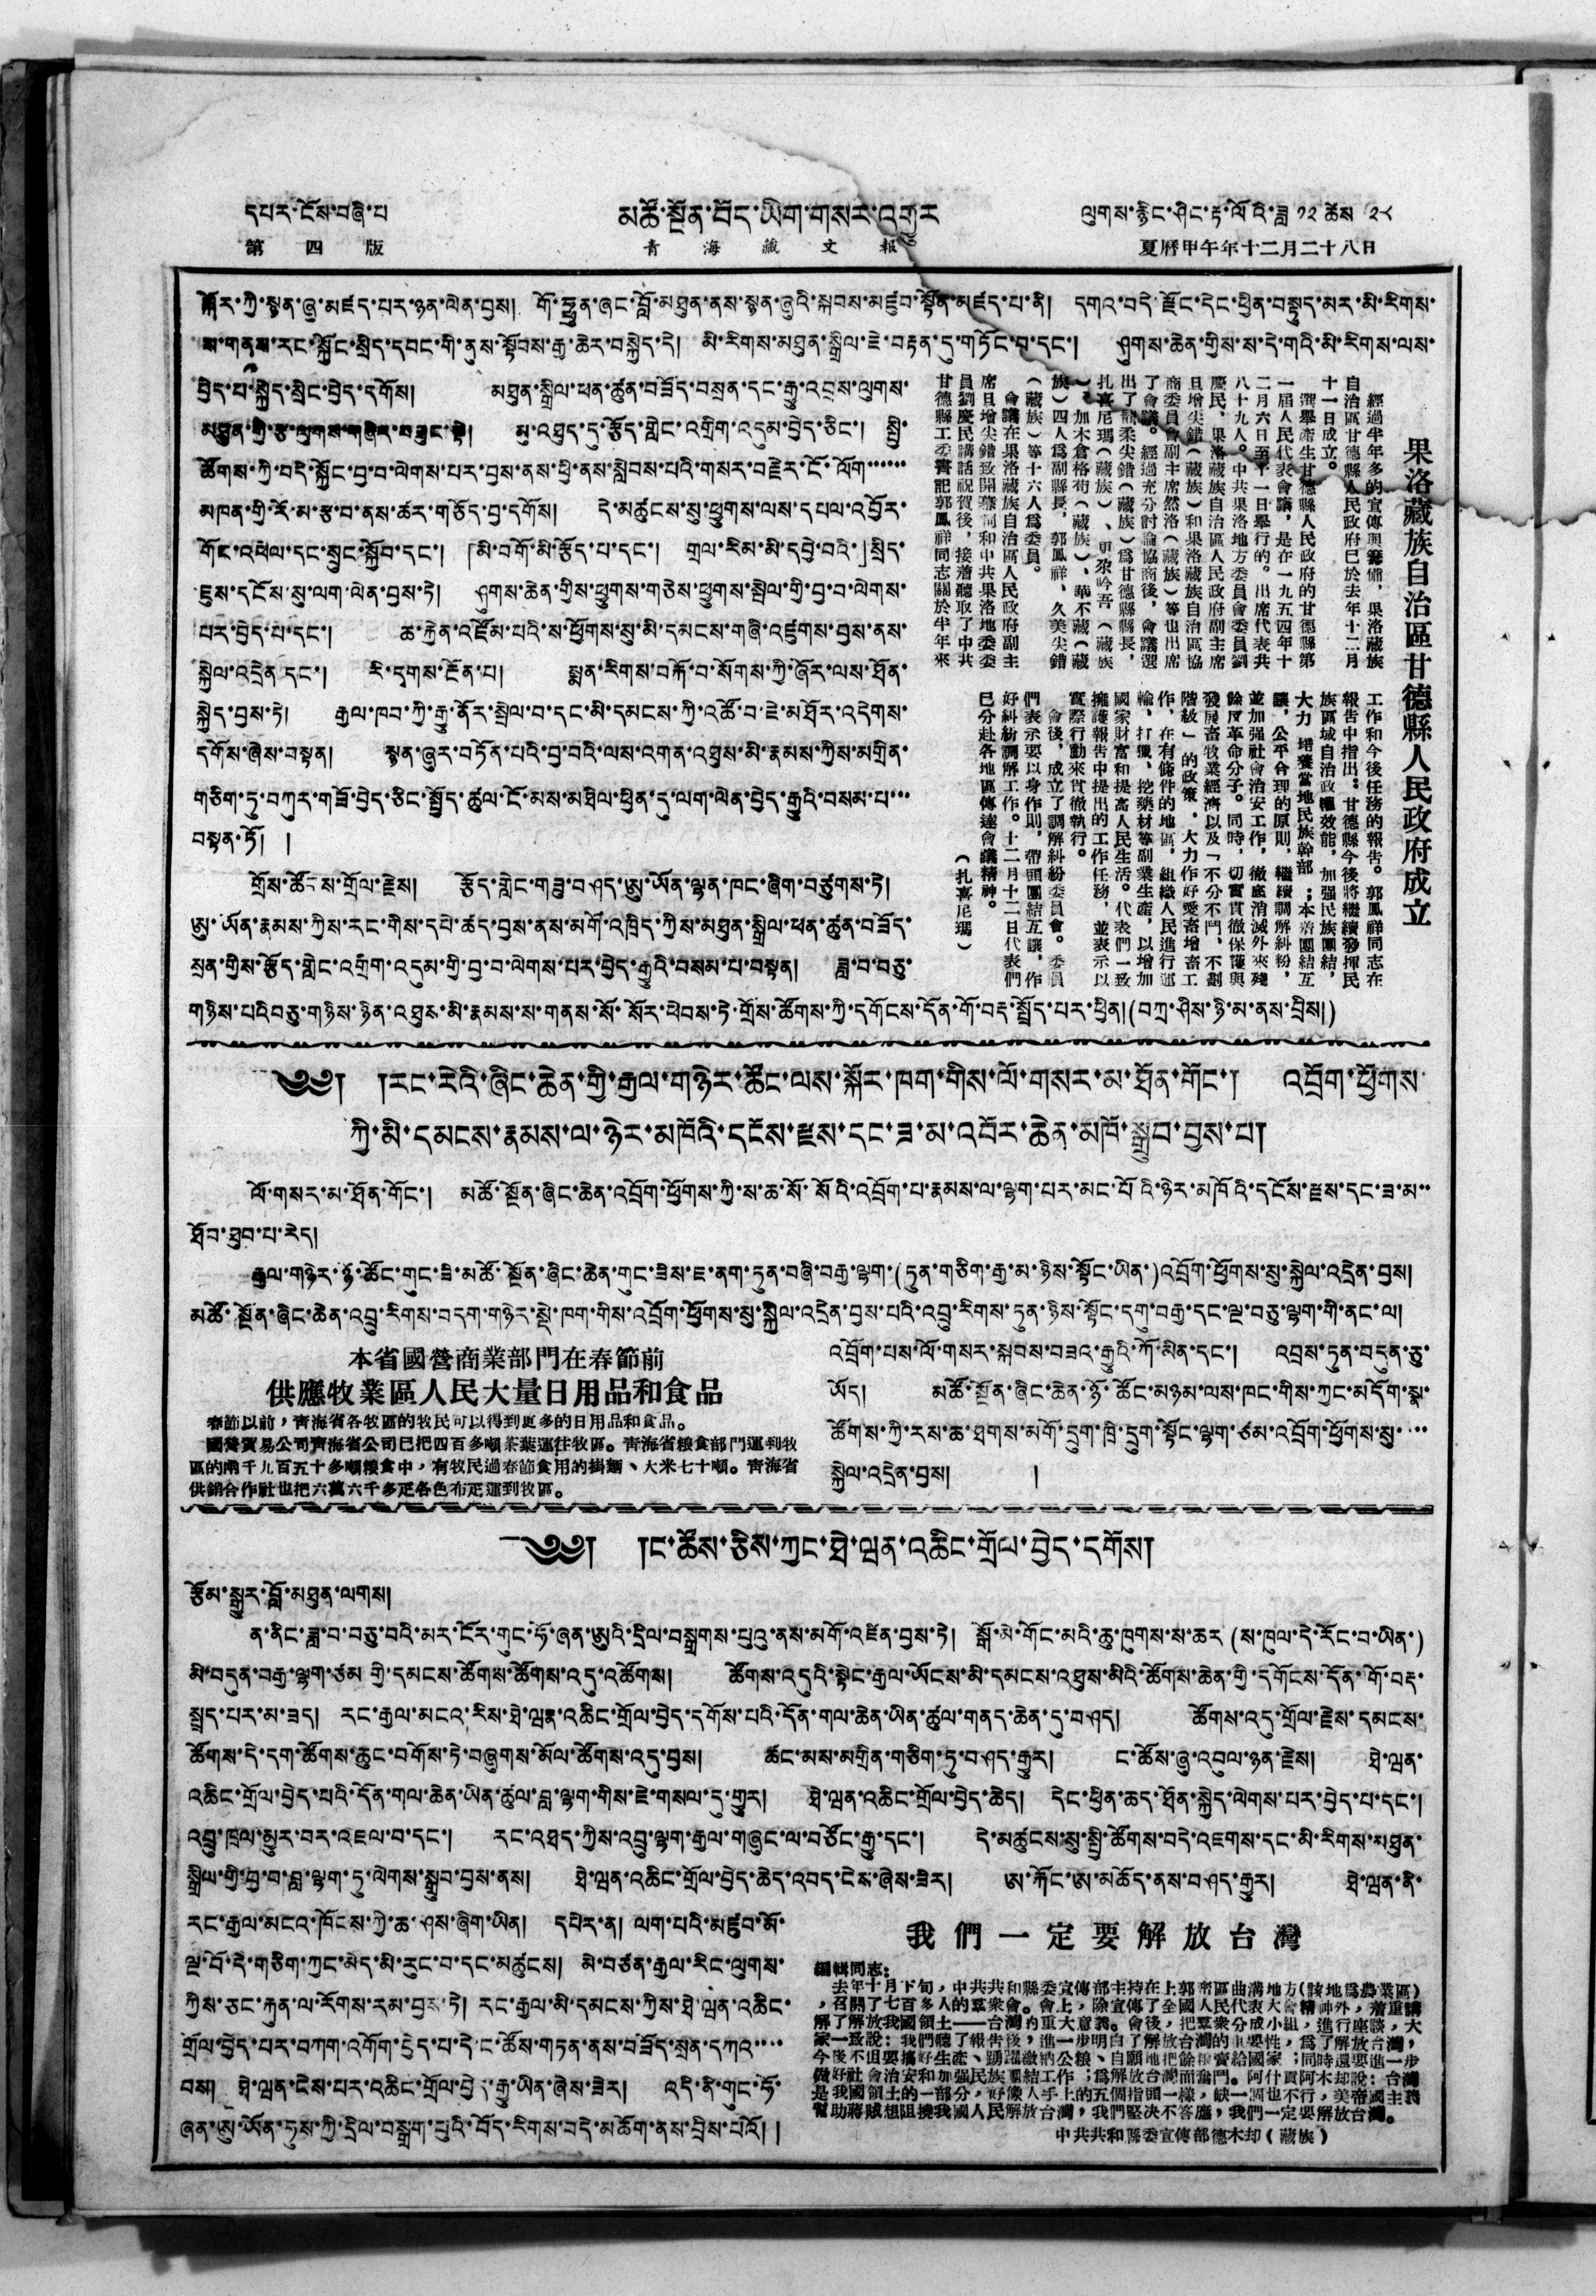དཔར་ངོས་བཞི་པ   མཚོ་སྔོན་བོད་ཡིག་གསར་འགྱུར  ལུགས་རྙིང་ཤིང་རྟ་ལོའི་ཟླ ༡༢ ཚེས ༢༨
第 四 版 青 海 藏 文 報 夏曆甲午年十二月二十八日
སྐོར་ཀྱི་སྙན་ཞུ་མཛད་པར་ཉན་ལེན་བྱས། གོ་ཧྥུན་ཞང་བློ་མཐུན་ནས་སྙན་ཞུའི་སྐབས་མཛུབ་སྟོན་མཛད་པ་ནི། དགའ་བདེ་རྫོང་དེང་ཕྱིན་བསྟུད་མར་མི་རིགས་
ས་གནས་རང་སྐྱོང་སྲིད་དབང་གི་ནུས་སྟོབས་རྒྱ་ཆེར་བསྐྱེད་དེ། མི་རིགས་མཐུན་སྒྲིལ་ཇེ་བརྟན་དུ་གཏོང་བ་དང་། ཤུགས་ཆེན་གྱིས་ས་དེ་གའི་མི་རིགས་ལས་
བྱེད་པ་སྐྱེད་སྲིང་བྱེད་དགོས། མཐུན་སྒྲིལ་ཕན་ཚུན་བཟོད་བསྲན་དང་རྒྱུ་འབྲས་ལུགས་
མཐུན་གྱི་རྩ་ལུགས་གཞིར་བཟུང་སྟེ། མུ་འཐུད་དུ་རྩོད་གླེང་འགྲིག་འདུམ་བྱེད་ཅིང་། སྤྱི་
ཚོགས་ཀྱི་བདེ་སྐྱོང་བྱ་བ་ལེགས་པར་བྱས་ནས་ཕྱི་ནས་སླེབས་པའི་གསར་བརྗེར་ངོ་ལོག་་་་་་་
མཁན་གྱི་རོ་མ་རྩ་བ་ནས་ཚར་གཅོད་བྱ་དགོས། དེ་མཚུངས་སུ་ཕྱུགས་ལས་དཔལ་འབྱོར་
གོང་འཕེལ་དང་སྲུང་སྐྱོབ་དང་། 「མི་བགོ་མི་རྩོད་པ་དང་། གྲལ་རིམ་མི་དབྱེ་བའི་」སྲིད་
ཇུས་དངོས་སུ་ལག་ལེན་བྱས་ཏེ། ཤུགས་ཆེན་གྱིས་ཕྱུགས་གཅེས་ཕྱུགས་སྤེལ་གྱི་བྱ་བ་ལེགས་
པར་བྱེད་པ་དང་། ཆ་རྐྱེན་འཛོམ་པའི་ས་ཕྱོགས་སུ་མི་དམངས་གཞི་འཛུགས་བྱས་ནས་
སྐྱེལ་འདྲེན དང་། རི་དྭགས་རྔོན་པ། སྨན་རིགས་བརྐོ་བ་སོགས་ཀྱི་ཞོར་ལས་ཐོན་
སྐྱེད་བྱས་ཏེ། རྒྱལ་ཁབ་ཀྱི་རྒྱུ་ནོར་སྤེལ་བ་དང་མི་དམངས་ཀྱི་འཚོ་བ་ཇེ་མཐོར་འདེགས་
དགོས་ཞེས་བསྟན། སྙན་ཞུར་བཏོན་པའི་བྱ་བའི་ལས་འགན་འཐུས་མི་རྣམས་ཀྱིས་མགྲིན་
གཅིག་ཏུ་བཀུར་གཟོ་བྱེད་ཅིང་སྤྱོད་ཚུལ་ངོ་མས་མཐིལ་ཕྱིན་དུ་ལག་ལེན་བྱེད་རྒྱུའི་བསམ་པ་་་
བསྟན་ཏོ། །
གྲོས་ཚོངས་གྲོལ་རྗེས། རྩོད་གླེང་གཟུ་བཤད་ཨུ་ཡོན་ལྷན་ཁང་ཞིག་བཙུགས་ཏེ།
ཨུ་ཡོན་རྣམས་ཀྱིས་རང་གིས་དཔེ་ཚད་བྱས་ནས་མགོ་འཁྲིད་ཀྱིས་མཐུན་སྒྲིལ་ཕན་ཚུན་བཟོད་
སྲན་གྱིས་རྩོད་གླེང་འགྲིག་འདུམ་གྱི་བྱ་བ་ལེགས་པར་བྱེད་རྒྱུའི་བསམ་པ་བསྟན། ཟླ་བ་བཅུ་
གཉིས་པའི བཅུ་གཉིས་ཉིན་འཐུས་མི་རྣམས་ས་གནས་སོ་སོར་ཕེབས་ཏེ་གྲོས་ཚོགས་ཀྱི་དགོངས་དོན་གོ་བརྡ་སྤྲོད་པར་ཕྱིན།
(བཀྲ་ཤིས་ཉི་མ་ནས་བྲིས།)
果洛藏族自治區甘德縣人民政府成立
經過半年多的宣傳與籌備，果洛藏族
自治區甘德縣人民政府已於去年十二月
十一日成立。
選舉產生甘德縣人民政府的甘德縣第
一屆人民代表會議，是在一九五四年十
二月六日至十一日舉行的。出席代表共
八十九人。中共果洛地方委員會委員劉
慶民，果洛藏族自治區人民政府副主席
旦增尖錯（藏族）和果洛藏族自治區協
商委員會副主席然洛（藏族）等也出席
了會議。經過充分討論協商後，會議選
出了龍柔尖錯（藏族）爲甘德縣縣長，
扎喜尼瑪（藏族）、更尕吟吾（藏族
）、加木倉格苟（藏族）、華不藏（藏
族）四人爲副縣長，郭鳳祥、久美尖錯
（藏族）等十六人爲委員。
會議在果洛藏族自治區人民政府副主
席旦增尖錯致開幕詞和中共果洛地委委
員劉慶民講話祝賀後，接着聽取了中共
甘德縣工委書記郭鳳祥同志關於半年來
工作和今後任務的報告。郭鳳祥同志在
報告中指出：甘德縣今後將繼續發揮民
族區域自治政權效能，加強民族團結，
大力 培養當地民族幹部 ；本着團結互
讓，公平合理的原則，繼續調解糾紛，
並加強社會治安工作，徹底消滅外來殘
餘反革命分子。同時，切實貫徹保護與
發展畜牧業經濟以及「不分不鬥、不劃
階級」 的政策 ，大力作好愛畜增畜工
作，在有條件的地區，組織人民進行運
輸、打獵、挖藥材等副業生產，以增加
國家財富和提高人民生活。代表們一致
擁護報告中提出的工作任務，並表示以
實際行動來貫徹執行。
會後，成立了調解糾紛委員會。委員
們表示要以身作則，帶頭團結互讓，作
好糾紛調解工作。十二月十二日代表們
已分赴各地區傳達會議精神。
（扎喜尼瑪）
༄༅། །རང་རེའི་ཞིང་ཆེན་གྱི་རྒྱལ་གཉེར་ཚོང་ལས་སྐོར་ཁག་གིས་ལོ་གསར་མ་ཐོན་གོང་། འབྲོག་ཕྱོགས་
ཀྱི་མི་དམངས་རྣམས་ལ་ཉེར་མཁོའི་དངོས་རྫས་དང་ཟ་མ་འབོར་ཆེན་མཁོ་སྒྲུབ་བྱས་པ།
ལོ་གསར་མ་ཐོན་གོང་། མཚོ་སྔོན་ཞིང་ཆེན་འབྲོག་ཕྱོགས་ཀྱི་ས་ཆ་སོ་སོའི་འབྲོག་པ་རྣམས་ལ་ལྷག་པར་མང་པོའི་ཉེར་མཁོའི་དངོས་རྫས་དང་ཟ་མ་་
ཐོབ་ཐུབ་པ་རེད།
རྒྱལ་གཉེར་ཉོ་ཚོང་གུང་ཟི་མཚོ་སྔོན་ཞིང་ཆེན་གུང་ཟིས་ཇ་ནག་ཏུན་བཞི་བརྒྱ་ལྷག་(ཏུན་གཅིག་རྒྱ་མ་ཉིས་སྟོང་ཡིན་)འབྲོག་ཕྱོགས་སུ་སྐྱེལ་འདྲེན་བྱས།
མཚོ་སྔོན་ཞིང་ཆེན་འབྲུ་རིགས་བདག་གཉེར་སྡེ་ཁག་གིས་འབྲོག་ཕྱོགས་སུ་སྐྱིལ་འདྲེན་བྱས་པའི་འབྲུ་རིགས་ཏུན་ཉིས་སྟོང་དགུ་བརྒྱ་དང་ལྔ་བཅུ་ལྷག་གི་ནང་ལ།
འབྲོག་པས་ལོ་གསར་སྐབས་བཟའ་རྒྱུའི་ཀོ་མིན་དང་། འབྲས་ཏུན་བདུན་ཅུ་
ཡོད། མཚོ་སྔོན་ཞིང་ཆེན་ཉོ་ཚོང་མཉམ་ལས་ཁང་གིས་ཀྱང་མདོག་སྣ་
ཚོགས་ཀྱི་རས་ཆ་ཐུགས་མགོ་དྲུག་ཁྲི་དྲུག་སྟོང་ལྷག་ཙམ་འབྲོག་ཕྱོགས་སུ་་་་
སྐྱེལ་འདྲེན་བྱས། །
本省國營商業部門在春節前
供應牧業區人民大量日用品和食品
春節以前，靑海省各牧區的牧民可以得到更多的日用品和食品。
國營貿易公司靑海省公司已把四百多噸茶葉運往牧區。靑海省粮食部門運到牧
區的兩千九百五十多噸粮食中，有牧民過春節食用的掛麵、大米七十噸。靑海省
供銷合作社也把六萬六千多疋各色布疋運到牧區。
༄༅། །ང་ཚོས་ཅིས་ཀྱང་ཐེ་ཝན་འཆིང་གྲོལ་བྱེད་དགོས།
རྩོམ་སྒྱུར་བློ་མཐུན་ལགས།
ན་ནིང་ཟླ་བ་བཅུ་བའི་མར་ངོར་གུང་ཧོ་ཞན་ཨུའི་དྲིལ་བསྒྲགས་པུའུ་ནས་མགོ་འཛིན་བྱས་ཏེ། སྒོ་མེ་གོང་མའི་ཆུ་ཁུགས་ས་ཆར (ས་ཁུལ་དེ་རོང་བ་ཡིན་)
མི་བདུན་བརྒྱ་ལྷག་ཙམ གྱི་དམངས་ཚོགས་ཚོགས་འདུ་འཚོགས། ཚོགས་འདུའི་སྟེང་རྒྱལ་ཡོངས་མི་དམངས་འཐུས་མིའི་ཚོགས་ཆེན་གྱི་དགོངས་དོན་གོ་བརྡ་
སྤྲད་པར་མ་ཟད། རང་རྒྱལ་མངའ་རིས་ཐེ་ཝན་འཆིང་གྲོལ་བྱེད་དགོས་པའི་དོན་གལ་ཆེན་ཡིན་ཚུལ་གནད་ཆེན་དུ་བཤད། ཚོགས་འདུ་གྲོལ་རྗེས་དམངས་
ཚོགས་དེ་དག་ཚོགས་ཆུང་བགོས་ཏེ་བཞུགས་མོལ་ཚོགས་འདུ་བྱས། ཚང་མས་མགྲིན་གཅིག་ཏུ་བཤད་རྒྱུར། ང་ཚོས་ཞུ་འབུལ་ཉན་རྗེས། ཐེ་ཝན་
འཆིང་གྲོལ་བྱེད་པའི་དོན་གལ་ཆེན་ཡིན་ཚུལ་བླ་ལྷག་གིས་ཇེ་གསལ་དུ་གྱུར། ཐེ་ཝན་འཆིང་གྲོལ་བྱེད་ཆེད། དེང་ཕྱིན་ཆད་ཐོན་སྐྱེད་ལེགས་པར་བྱེད་པ་དང་།
འབྲུ་ཁྲལ་མྱུར་བར་འཇལ་བ་དང་། རང་འཐད་ཀྱིས་འབྲུ་ལྷག་རྒྱལ་གཞུང་ལ་བཙོང་རྒྱུ་དང་། དེ་མཚུངས་སུ་སྤྱི་ཚོགས་བདེ་འཇགས་དང་མི་རིགས་མཐུན་
སྒྲིལ་གྱི་བྱ་བ་བླ་ལྷག་ཏུ་ལེགས་སྒྲུབ་བྱས་ནས། ཐེ་ཝན་འཆིང་གྲོལ་བྱེད་ཆེད་འབད་ངེས་ཞེས་ཟེར། ཨ་རྐོང་ཨོ་མཆོད་ནས་བཤད་རྒྱུར། ཐེ་ཝན་ནི་
རང་རྒྱལ་མངའ་ཁོངས་ཀྱི་ཆ་ཤས་ཞིག་ཡིན། དཔེར་ན། ལག་པའི་མཛུབ་མོ་
ལྔ་བོ་དེ་གཅིག་ཀྱང་མེད་མི་རུང་བ་དང་མཚུངས། མི་བཙན་རྒྱལ་རིང་ལུགས་
ཀྱིས་ཅང་རྐུན་ལ་རོགས་རམ་བྱས་ཏེ། རང་རྒྱལ་མི་དམངས་ཀྱིས་ཐེ་ཝན་འཆིང་
གྲོལ་བྱེད་པར་བཀག་འགོག་བྱེད་པ་དེ་ང་ཚོས་གཏན་ནས་བཟོད་སྲན་དཀའ་་་་
བས། ཐེ་ཝན་ངེས་པར་འཆིང་གྲོལ་བྱེད་རྒྱུ་ཡིན་ཞེས་ཟེར། འདི་ནི་གུང་ཧོ་
ཞན་ཨུ་ཡོན་ཧུས་ཀྱི་དྲིལ་བསྒྲག་པུའི་བོད་རིགས་བདེ་མཆོག་ནས་བྲིས་པའོ། །
我 們 一 定 要 解 放 台 灣
編輯同志：
去年十月下旬，中共共和縣爲宣傳部主持在上郭密區曲溝地方（該地爲農業區）
，召開了七百多人的羣衆會。會上，除宣傳了全國人民代表大會精神外，着重講
解了解放我國領土——台灣的重大意義。會後，把羣衆分成小組，進行座談，大
家一致說：我們聽了報告後，進一步明白了解放台灣的重要性，爲了解放台灣，
今後不但要搞好生產、踊躍繳納公粮、自願地把餘粮賣給國家；同時還要進一步
做好社會治安和加強民族團結工作；爲解放台灣而奮鬥。阿什貢阿木却說：台灣
是我國領土的一部分，好像人手上的五個指頭一樣，缺一個也不行，美帝國主義
幫助蔣賊想阻撓我國人民解放台灣，我們堅決不答應，我們一定要解放台灣。
中共共和縣委宣傳部德木却（藏族）
